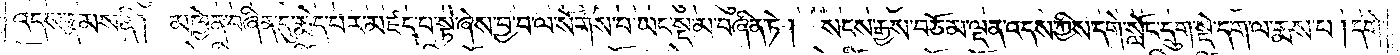འདས་རྣམས་ནི། མཁྱེན་བཞིན་དུ་རྨེད་པར་མཛད་པ་སྟེ་ཞེས་བྱ་བ་ལ་སོགས་པ་ཡང་སྔ་མ་བཞིན་ཏེ། སངས་རྒྱས་བཅོམ་ལྡན་འདས་ཀྱིས་དགེ་སློང་དྲུག་སྡེ་དག་ལ་རྨས་པ་།དགེ་
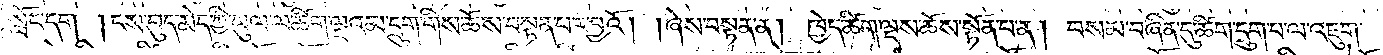སློང་དག །ངས་བུད་མེད་ཀྱི་ཡུལ་ལ་ཚིག་ལྔའམ་དྲུག་གིས་ཆོས་བསྟན་པར་བྱའོ། །ཞེས་བསྟན་ན། ཁྱེད་ཚིག་ལྔས་ཆོས་སྟོན་པ་ན། བསམ་བཞིན་དུ་ཚིག་དྲུག་པ་ལ་འཇུག་
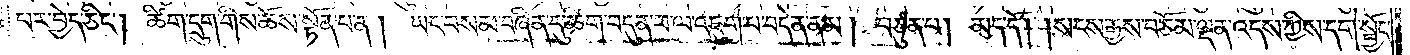པར་བྱེད་ཅིང༌། ཚིག་དྲུག་གིས་ཆོས་སྟོན་པ་ན། ཡང་བསམ་བཞིན་དུ་ཚིག་བདུན་པ་ལ་འཇུག་པ་བདེན་ནམ། བཙུན་པ། མད་དོ། །སངས་རྒྱས་བཅོམ་ལྡན་འདས་ཀྱིས་དགེ་སྦྱོང་
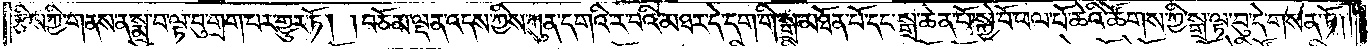རྩིས་ཀྱི་གནས་ན་སྨྲ་བ་ལྟ་བུ་གྲག་པར་གྱུར་ཏོ། །བཅོམ་ལྡན་འདས་ཀྱིས་ཀུན་དགའི་ར་བའི་མཐར་དེ་དག་གི་སྒྲ་མཐོན་པོ་དང་སྒྲ་ཆེན་པོ་སྐྱེ་བོ་ཕལ་པོ་ཆེའི་ཚོགས་ཀྱི་སྒྲ་ལྟ་བུ་དེ་གསན་ཏོ༎
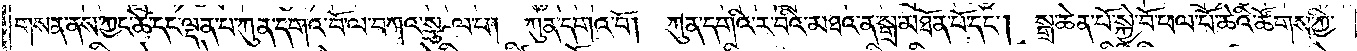གསན་ནས་ཀྱང་ཚེ་དང་ལྡན་པ་ཀུན་དགའ་བོ་ལ་བཀའ་སྩལ་པ། ཀུན་དགའ་བོ། ཀུན་དགའི་ར་བའི་མཐའ་ན་སྒྲ་མཐོན་པོ་དང༌། སྒྲ་ཆེན་པོ་སྐྱེ་བོ་ཕལ་པོ་ཆེའི་ཚོགས་ཀྱི་
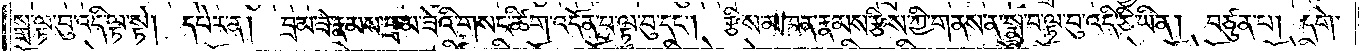སྒྲ་ལྟ་བུ་འདི་ལྟ་སྟེ། དཔེར་ན། བྲམ་ཟེ་རྣམས་བྲམ་ཟེའི་གསང་ཚིག་འདོན་པ་ལྟ་བུ་དང༌། རྩིས་མཁན་རྣམས་རྩིས་ཀྱི་གནས་ན་སྨྲ་བ་ལྟ་བུ་འདི་ཅི་ཡིན། བཙུན་པ། དགེ་
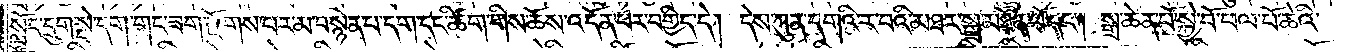སློང་དྲུག་སྡེ་དག་གང་ཟག་རྫོགས་པར་མ་བསྙེན་པ་དག་དང་ཚིག་གིས་ཆོས་འདོན་པར་བགྱིད་དེ། དེས་ཀུན་དགའི་ར་བའི་མཐར་སྒྲ་མཐོན་པོ་དང༌། སྒྲ་ཆེན་པོ་སྐྱེ་བོ་ཕལ་པོ་ཆེའི་
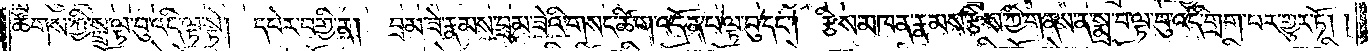ཚོགས་ཀྱི་སྒྲ་ལྟ་བུ་འདི་ལྟ་སྟེ། དཔེར་བགྱི་ན། བྲམ་ཟེ་རྣམས་བྲམ་ཟེའི་གསང་ཚིག་འདོན་པ་ལྟ་བུ་དང༌། རྩིས་མཁན་རྣམས་རྩིས་ཀྱི་གནས་ན་སྨྲ་བ་ལྟ་བུ་འདི་གྲག་པར་གྱུར་ཏོ། །
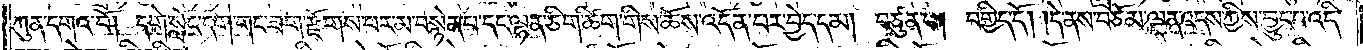ཀུན་དགའ་བོ། དགེ་སློང་དག་གང་ཟག་རྫོགས་པར་མ་བསྙེན་པ་དང་ལྷན་ཅིག་ཚིག་གིས་ཆོས་འདོན་པར་བྱེད་དམ། བཙུན་པ། བགྱིད་དོ། །དེ་ནས་བཅོམ་ལྡན་འདས་ཀྱིས་བྱུང་བ་འདི་
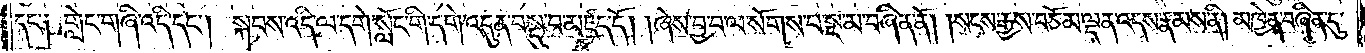དང་༑ གླེང་གཞི་འདི་དང༌། སྐབས་འདི་ལ་དགེ་སློང་གི་དགེ་འདུན་བསྡུ་བ་མཛད་དོ། །ཞེས་བྱ་བ་ལ་སོགས་པ་སྔ་མ་བཞིན་ནོ། །སངས་རྒྱས་བཅོམ་ལྡན་འདས་རྣམས་ནི། མཁྱེན་བཞིན་དུ་
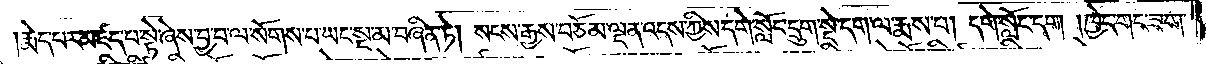རྨེད་པར་མཛད་པ་སྟེ་ཞེས་བྱ་བ་ལ་སོགས་པ་ཡང་སྔ་མ་བཞིན་ཏེ། སངས་རྒྱས་བཅོམ་ལྡན་འདས་ཀྱིས་དགེ་སློང་དྲུག་སྡེ་དག་ལ་རྨས་པ། དགེ་སློང་དག །ཁྱེད་གང་ཟག་
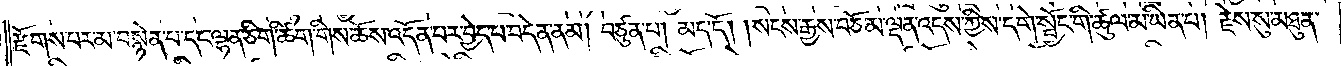རྫོགས་པར་མ་བསྙེན་པ་དང་ལྷན་ཅིག་ཚིག་གིས་ཆོས་འདོན་པར་བྱེད་པ་བདེན་ནམ། བཙུན་པ། མད་དོ། །སངས་རྒྱས་བཅོམ་ལྡན་འདས་ཀྱིས་དགེ་སྦྱོང་གི་ཚུལ་མ་ཡིན་པ། རྗེས་སུ་མཐུན་
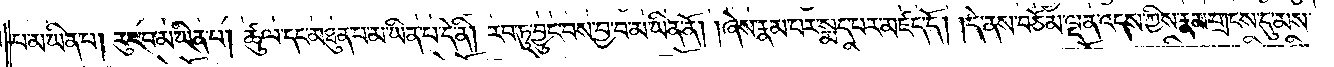པ་མ་ཡིན་པ། རུང་བ་མ་ཡིན་པ། ཚུལ་དང་མཐུན་པ་མ་ཡིན་པ་དེ་ནི། རབ་ཏུ་བྱུང་བས་བྱ་བ་མ་ཡིན་ནོ། །ཞེས་རྣམ་པར་སྨད་པར་མཛད་དོ། །དེ་ནས་བཅོམ་ལྡན་འདས་ཀྱིས་རྣམ་གྲངས་དུ་མས་
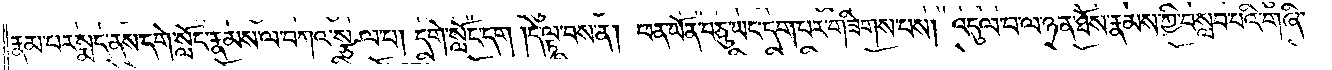རྣམ་པར་སྨད་ནས་དགེ་སློང་རྣམས་ལ་བཀའ་སྩལ་པ། དགེ་སློང་དག །དེ་ལྟ་བས་ན། ཕན་ཡོན་བཅུ་ཡང་དག་པར་གཟིགས་པས། འདུལ་བ་ལ་ཉན་ཐོས་རྣམས་ཀྱི་བསླབ་པའི་གཞི་
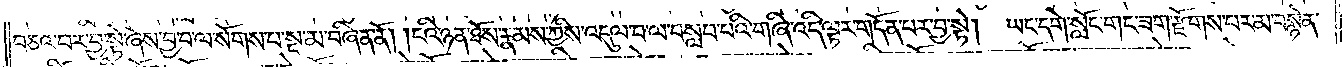བཅའ་བར་བྱ་སྟེ་ཞེས་བྱ་བ་ལ་སོགས་པ་སྔ་མ་བཞིན་ནོ། །ངའི་ཉན་ཐོས་རྣམས་ཀྱིས་འདུལ་བ་ལ་བསླབ་པའི་གཞི་འདི་ལྟར་གདོན་པར་བྱ་སྟེ། ཡང་དགེ་སློང་གང་ཟག་རྫོགས་པར་མ་བསྙེན་
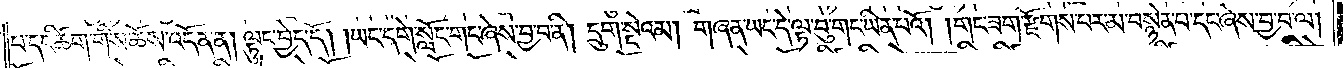པ་དང་ཚིག་གིས་ཆོས་འདོན་ན། ལྟུང་བྱེད་དོ། །ཡང་དགེ་སློང་གང་ཞེས་བྱ་བ་ནི། དྲུག་སྡེའམ། གཞན་ཡང་དེ་ལྟ་བུ་གང་ཡིན་པའོ། །གང་ཟག་རྫོགས་པར་མ་བསྙེན་པ་དང་ཞེས་བྱ་བ་ལ།
